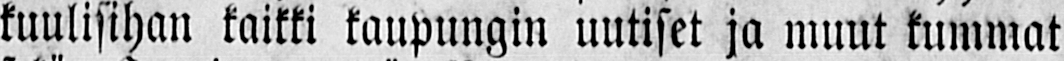kuulisihan kaikki kaupungin uutiset ja muut kummat
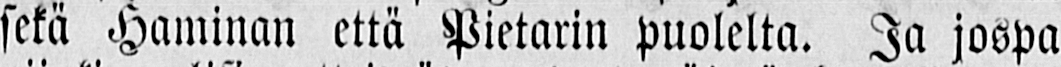sekä Haminan että Pietarin puolelta. Ja jospa
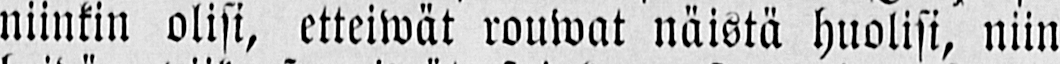niinkin olisi, etteiwät rouwat näistä huolisi, niin
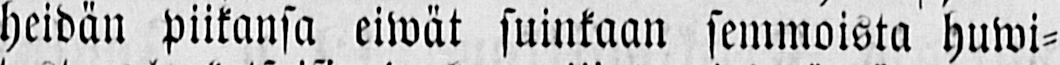heidän piikansa eiwät suinkaan semmoista huwi-
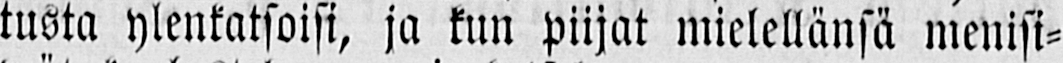tusta ylenkatsoisi, ja kun piijat mielellänsä menisi-
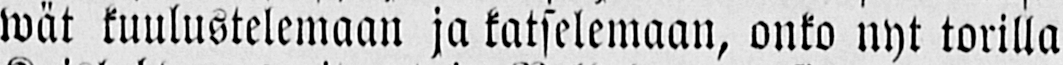wät kuulustelemaan ja katselemaan, onko nyt torilla
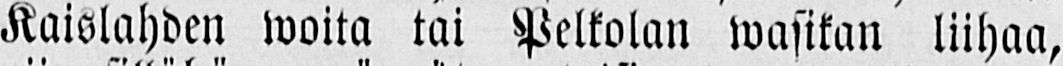Kaislahden woita tai Peltolan wasikan liihaa,
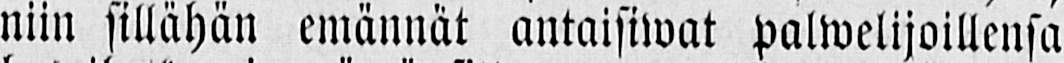niin sillähän emännät antaisiwat palwelijoillensa
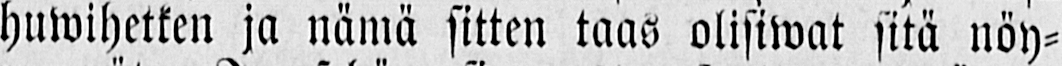huwihetken ja nämä sitten taas olisiwat sitä nöy-
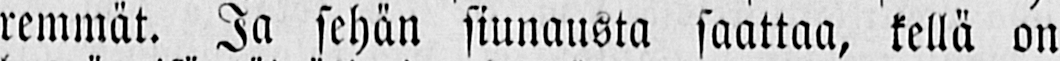remmät. Ja sehän siunausta saattaa, kellä on
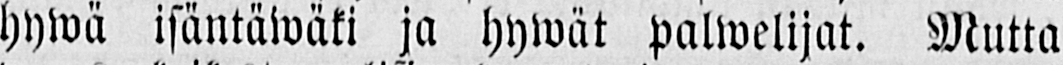hywä isäntäwäki ja hywät palwelijat. Mutta
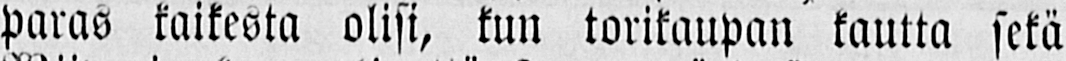paras kaikesta olisi, kun torikaupan kautta sekä
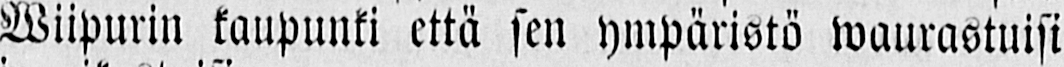wiipurin kaupunki että sen ympäristö waurastuisi
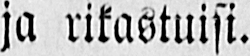ja rikastuisi.
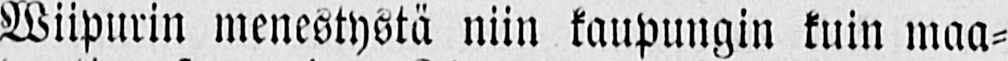Wiipurin menestystä niin kaupungin kuin maa-
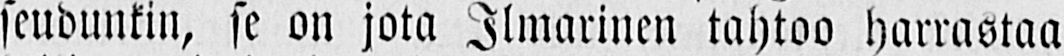seudunkin, se on jota Ilmarinen tahtoo harrastaa
